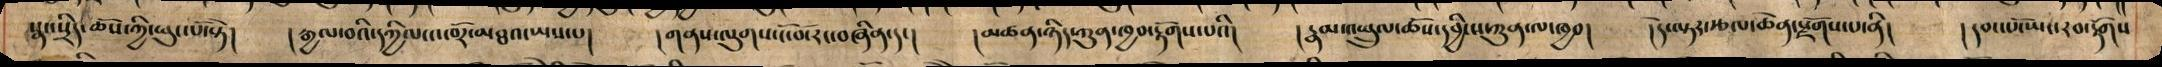སྣང་སྲིད་ཆོས་ཀྱི་ཕུང་པོ་སྟེ། །རྒྱལ་བའི་དཀྱིལ་འཁོར་མཐའ་ཡས་པ། །གནས་ལུགས་ངོ་བོར་རང་བཞིན་དང། །མཚན་ཉིད་ཀུན་ཁྱབ་རྟོགས་པའི། །རྣམ་འཕྲུལ་ཆོས་དབྱིངས་ཀུན་ལ་ཁྱབ། །དེ་ལྟར་རྩལ་ཆེན་སྫོགས་པ་ནི། །དབང་པོ་ཡང་རབ་རྟོགས
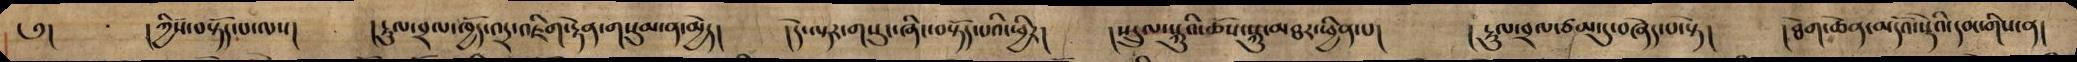༅། །ཀྱིས་བསྟོད་པ་ལས། །རྡུལ་བྲལ་ཁྱོད་འདྲ་འཇིག་རྟེན་གསུམ་ན་མྱེད། །དེ་ལྟར་གསུང་ཞིང་བསྟོད་པའི་ཕྱིར། །སྤྲུལ་སྐུའི་ཆོས་སྐུ་མཐར་ཕྱིན་པ། །རྡུལ་བྲལ་ཙམ་དུ་བཞེད་པ་སྟེ། །ཐེག་ཆེན་མདོའ་སྡེའི་དབང་གིས་ན།
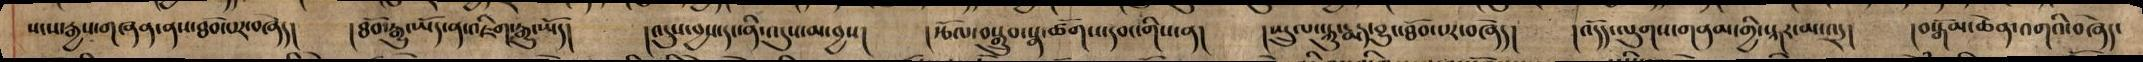སངས་རྒྱས་གཞན་ནས་ཐོབ་པར་བཞེད། །ཐོབ་རྒྱུ་ཡོད་ན་འཇིག་རྒྱུ་ཡོད། འདུས་བྱས་དང་ནི་འདུས་མ་བྱས། །རྩོལ་བསྒྲུབ་སྣ་ཚོགས་དབང་གིས་ན། །སྤྲུལ་སྐུ་རྨད་བྱུང་ཐོབ་པར་བཞེད། །འདོད་ལུགས་གནམ་གྱི་སྐར་མ་འདྲ། །བསྒོམ་ཆེན་འགའི་བཞེད་
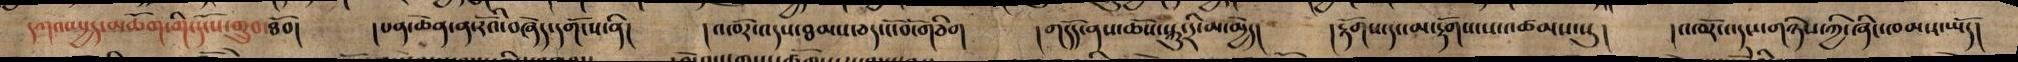དཀའ་སྤྱད་མཆོག་གི་དངོས་གྲུབ་ཐོབ། །པན་ཆེན་ན་རོའི་བཞེད་དགོངས་ནི། །འཁོར་འདས་ཐམས་ཅད་ངོ་བོ་གཅིག །གདོད་ནས་ཆོས་སྐུ་དྲི་མ་མྱེད། །རྟོགས་དང་མ་རྟོགས་ས་འཚམས་སུ། །འཁོར་འདས་གཉིས་ཀྱི་ཞིང་ཁམས་ཡོད།
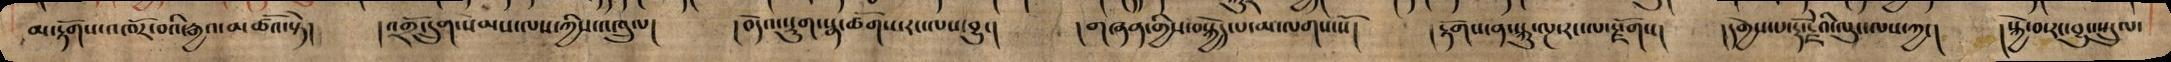མ་རྟོགས་འཁོར་བའི་རྒྱའ་མཚོའ་སྟེ། །འགྲོ་དྲུག་སེམས་ལས་ཀྱིས་འཁྲུལ། བདེའ་སྡུག་སྣ་ཚོགས་རང་ལས་བྱུང། །གཞན་གྱིས་བསྐྱེད་པ་མ་ལགས་སོ། །རྟོགས་ན་སྐུ་ལྔ་རང་ལ་སྫོགས། །དགྱེས་པ་རྡོ་རྗེའི་ལུང་ལས་ཀྱང། །སྐྱེ་བ་རང་བྱུང་སྤྲུལ་
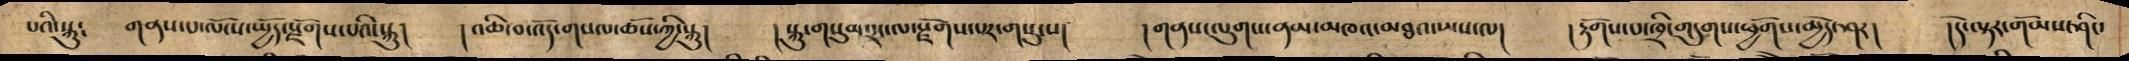པའི་སྐུ༴ གནས་པ་ལོངས་སྤྱོད་སྫོགས་པའི་སྐུ། །འཆི་བ་འོད་གསལ་ཆོས་ཀྱི་སྐུ། །སྐུ་གསུམ་དྲང་ལ་སྫོགས་པར་གསུངས། །གནས་ལུགས་ནམ་མཀའ་མཐའ་ཡས་ལ། །རྟོགས་པ་ཁྲི་གདུགས་ཕྱོགས་མྱེད་ཤར། །དེ་ལྟར་གོམས་ཤིང་
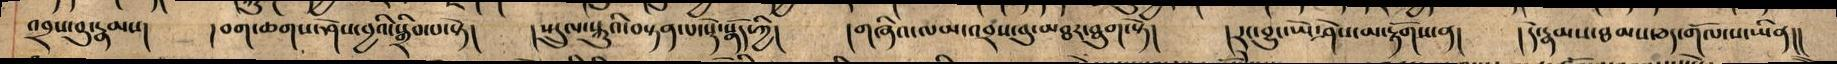འབྲས་བུ་རྣམས། །བག་ཆགས་ཤེས་བྱའི་སྒྲིབ་པ་སྟེ། །སྤྲུལ་སྐུའི་བསྟན་པ་སྡེ་སྣོད་ཀྱི། །གཞིའ་ལམ་འབྲས་བུ་མཐར་ཐུག་སྟེ། །རང་བྱུང་ཡེ་ཤེས་མ་རྟོགས་ན། །དེ་རྣམས་ཐམས་ཅད་གོལ་ས་ཡིན།།
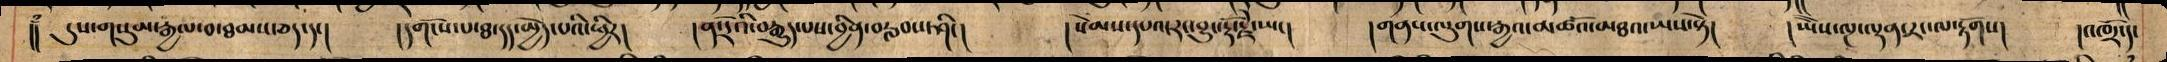།། དུས་གསུམ་རྒཡལ་བ་ཐམས་ཅད་དང། །དགོངས་པ་ཐ་དད་མྱེད་པའི་ཕྱིར། །ན་རོའི་བརྒྱུད་པས་བྱིན་བརླབས་ཤིང། །སེམས་དཔའ་རང་བྱུང་རྡོ་རྗེ་ཡང། །གནས་ལུགས་རྒྱའ་མཚོའ་མཐའ་ཡས་སྟེ། །ཡཻ་ལྔ་ལྡན་རང་ལ་རྟོགས། །འཁོར་དང
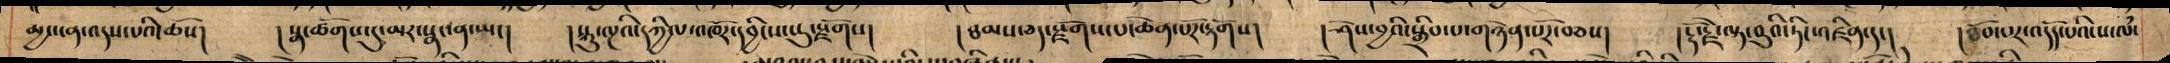མྱང་ན་འདས་པའི་ཆོས། །སྣ་ཚོགས་དུ་མར་སྣང་ན་ཡང། །སྐུ་ལྔའི་དཀྱིལ་འཁོར་དབྱིངས་སུ་སྫོགས། །ཐམས་ཅད་སྫོགས་པ་ཆེན་པོར་རྟོགས། །ཤེས་བྱའི་སྒྲིབ་པ་གཉེན་པོར་བཅས། །རྡོ་རྗེ་ལྟ་བུའི་ཏིང་འཛིན་དང། །ཐོབ་པར་འདོད་པའི་ས་ལཾ་
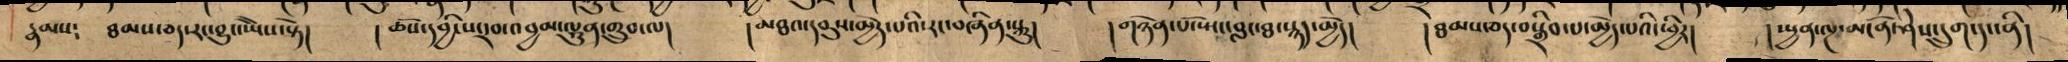རྣམས༴ ཐམས་ཅད་རང་བྱུང་ཡཻ་སྟེ། །ཆོས་དབྱིངས་རབ་འབྱམ་ལྷུན་གྲུབ་ལ། །མཐའ་དབུས་མྱེད་པའི་རང་བཞིན་སྐུ། །གཉེན་པོ་སྤང་བླང་ཐ་སྙད་མྱེད། །ཐམས་ཅད་བསྒྲིབ་པ་མྱེད་པའི་ཕྱིར། །སྤྱན་ལྔ་མངོན་ཤེས་དྲུག་དང་ནི།
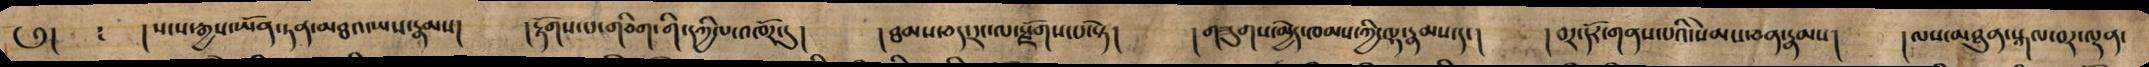༅། །སངས་རྒྱས་ཡོན་ཏན་མཐའ་ཡས་རྣམས། །རྟོགས་པ་གཅིག་གི་དཀྱིལ་འཁོར་དུ། །ཐམས་ཅད་རང་ལ་སྫོགས་པ་སྟེ། །གཟུགས་མྱེད་ཁམས་ཀྱི་ལྷ་རྣམས་དང། །བར་དོར་གནས་པའི་སེམས་ཅན་རྣམས། །ལས་མཐུན་སྐལ་བར་ལྡན་
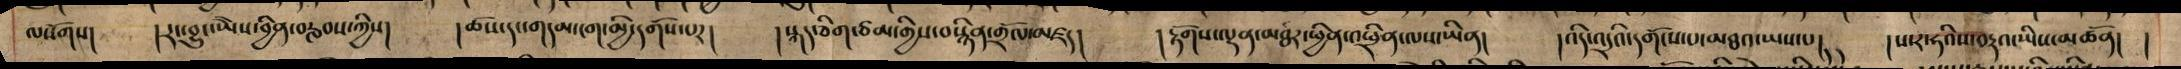ལསོགས། །རང་བྱུང་ཡཻས་བྱིན་བརླབས་ཀྱིས། །ཆོས་དང་གདམ་ངག་མྱི་དགོས་པར། །སྐད་ཅིག་ཙམ་གྱིས་བསྙིན་གྲོལ་མཛད། །རྟོགས་ལྡན་མཐར་ཕྱིན་འཕྲིན་ལས་ཡིན། །འདི་འདྲའི་དགོངས་པ་མཐའ་ཡས་པ། །ས་ར་ཧའིས་བརྡའ་ཡིས་མཚོན། །
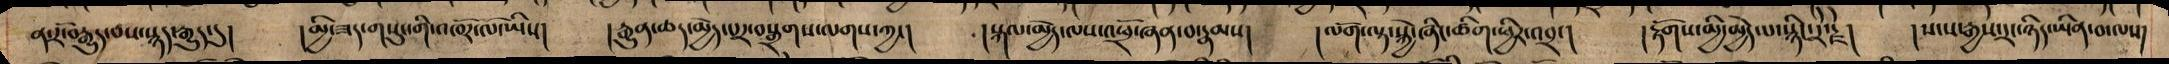ན་རོ་བརྒྱུད་བས་སྙད་རྒྱུད་དུ། །མྱི་ཟད་གསུང་གི་འཁོར་ལོ་ཡིས། །རྒྱུན་ཆད་མྱེད་པར་བསྒྲགས་ལགས་ཀྱང། །སྐལ་མྱེད་ལས་འཕྲོ་ཞན་བ་རྣམས། །ལོག་ལྟ་སྐྱེ་ཞིང་ཚིག་ཕྱིར་འབྲང། །རྟོགས་མྱི་མྱེད་པ་སྙིང་རེ་རྗེ། །སངས་རྒྱས་རང་ཉིད་ཡིན་བ་ལས།
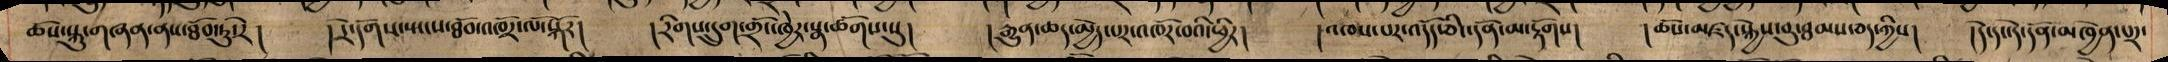ཆོས་སྐུ་གཞན་ནས་ཐོབ་ཏུ་རེ། །རེ་དོགས་སྤངས་ཐོབ་འཁོར་ལོ་སྐོར། །རིགས་དྲུག་གྲོང་ཁྱེར་སྣ་ཚོགས་སུ། །རྒྱུན་ཆད་མྱེད་པར་འཁོར་བའི་ཕྱིར། །འཁས་པར་འདོད་ཅིང་དོན་མ་རྟོགས། །ཆོས་མཛད་སྐྱེས་བུ་ཐམས་ཅད་ཀྱིས། །དེ་དང་དོན་མཁྱེན་པར་
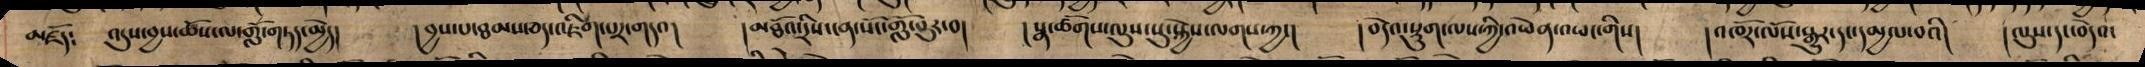མཛོད༴ འདུས་བྱས་ཆོས་ལ་གློ་གཏད་མྱེད། །བྱས་པ་ཐམས་ཅད་འཇིག་པར་གདའ། །མཐོའ་རིས་ངན་སོང་གློ་བུར་བ། །སྣ་ཚོགས་ལུས་སུ་སྐྱེས་ལགས་ཀྱང། །བདེའ་སྡུག་ལས་ཀྱི་འཕེན་འཕང་གིས། །འཁོར་ལོས་སྒྱར་དང་དམྱལ་བའི། །ལུས་དང་བདེའ་
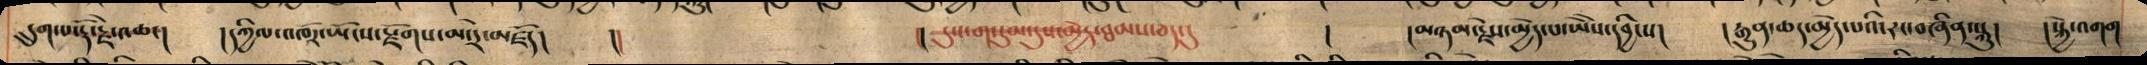དྲུག་པ་རྡོ་རྗེ་འཆང། །དཀྱིལ་འཁོར་ཡོངས་སྫོགས་མ་རེ་མཛོད། །། །། དུས་གསུམ་དུས་མྱེད་ཐམས་ཅད་དུ། ། །མཉམ་རྗེས་མྱེད་པ་ཡཻས་དབྱིངས། །རྒྱུན་ཆད་མྱེད་པའི་རང་བཞིན་སྐུ། །སྐྱེ་འགག
